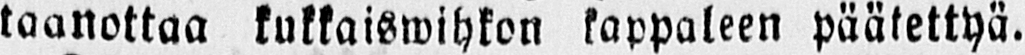taanottaa kukkaiswihkon kappaleen päätettyä.
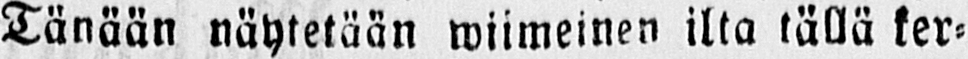Tänään näytetään wiimeinen ilta tällä ker-
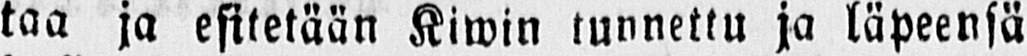taa ja esitetään Kiwin tunnettu ja läpeensä
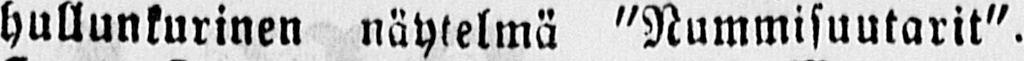hullunkurinen näytelmä "Nummisuutarit".
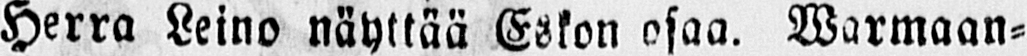Herra Leino näyttää Eskon osaa. Warmaan-
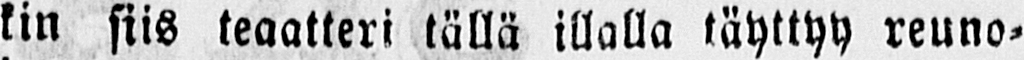kin siis teaatteri tällä illalla täyttyy reuno-
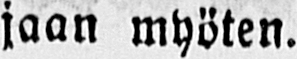jaan myöten.
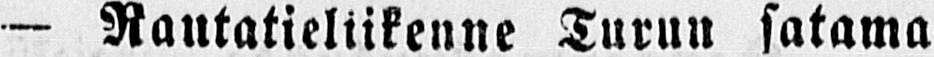— Rautatieliikenne Turun satama-
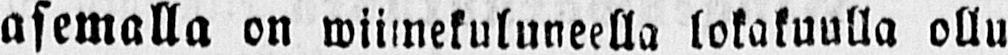asemalla on wiimekuluneella lokakuulla ollut
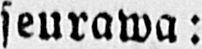seurawa:
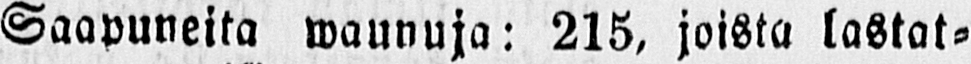Saapuneita waunuja: 215, joista lastat-
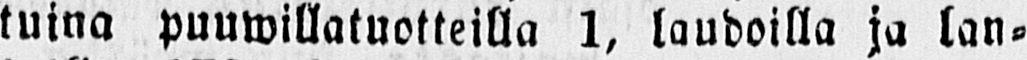tuina puuwillatuotteilla 1, laudoilla ja lan-
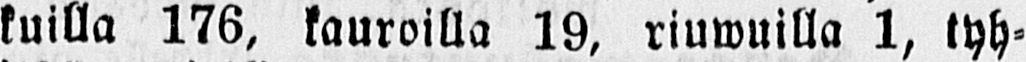kuilla 176, kauroilla 19, riuwuilla 1, tyh-
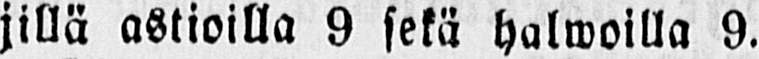jillä astioilla 9 sekä halwoilla 9.
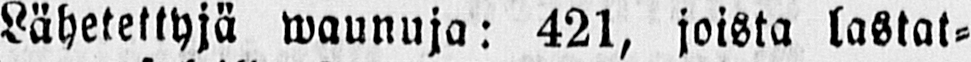Lähetettyjä waunuja: 421, joista lastat-
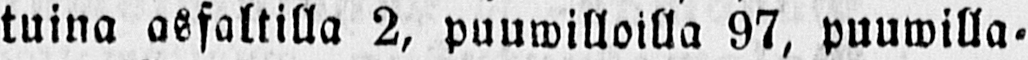tuina asfaltilla 2, puuwilloilla 97, puuwilla-
